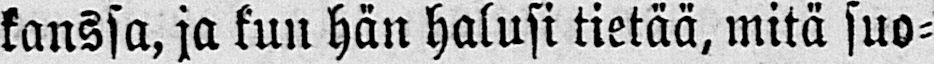kanssa, ja kun hän halusi tietää, mitä suo-
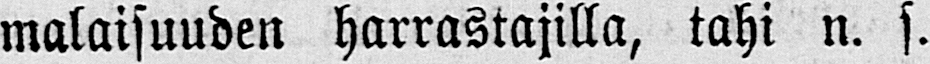malaisuuden harrastajilla, tahi n. s.
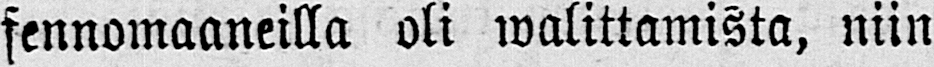fennomaaneilla oli walittamista, niin
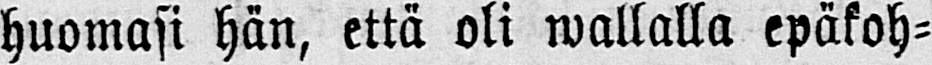huomasi hän, että oli wallalla epäkoh-
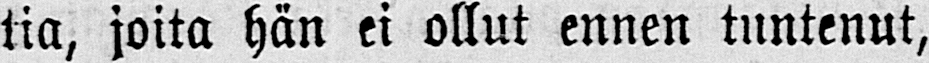tia, joita hän ei ollut ennen tuntenut,
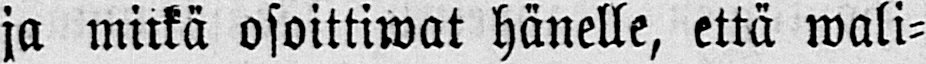ja mitkä osoittiwat hänelle, että wali-
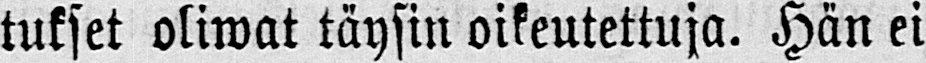tukset oliwat täysin oikeutettuja. Hän ei
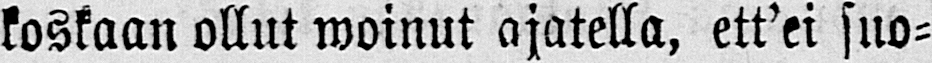koskaan ollut woinut ajatella, ett'ei suo-
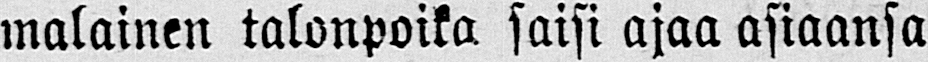malainen talonpoika saisi ajaa asiaansa
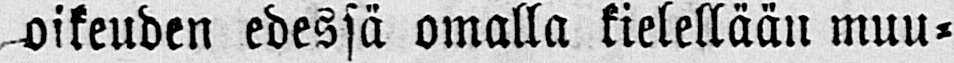oikeuden edessä omalla kielellään muu-
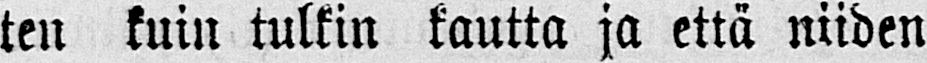ten kuin tulkin kautta ja että niiden
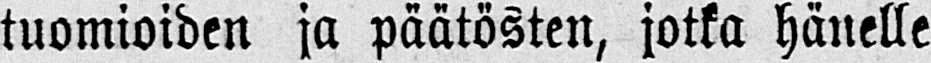tuomioiden ja päätösten, jotka hänelle
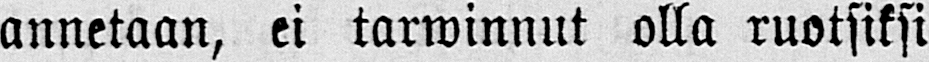annetaan, ei tarwinnut olla ruotsiksi
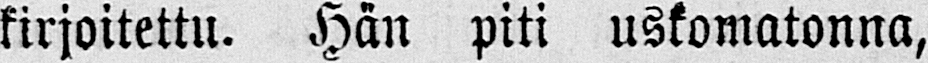kirjoitettu. Hän piti uskomatonna,
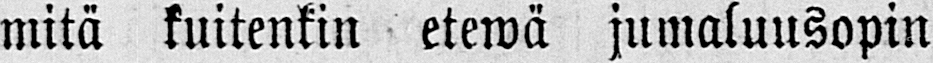mitä kuitenkin etewä jumaluusopin
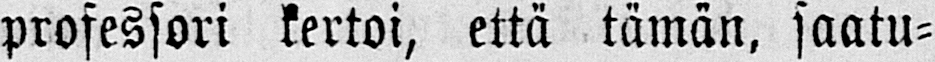prosessori kertoi, että tämän, saatu-
